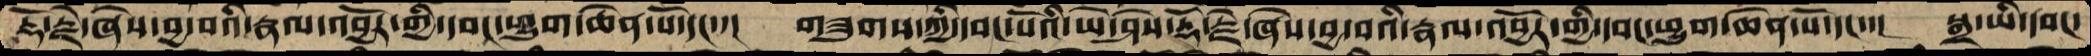རྡོ་རྗེ་ཞེས་བྱ་བའི་རྣལ་འབྱོར་གྱི་དབང་ཕྱུག་ཆེན་པོ་དང་་།  གཟུགས་ཀྱི་དབང་པོའི་ཡེ་ཤེས་རྡོ་རྗེ་ཞེས་བྱ་བའི་རྣལ་འབྱོར་གྱི་དབང་ཕྱུག་ཆེན་པོ་དང་་།  སྒྲ་ཡི་དབང་
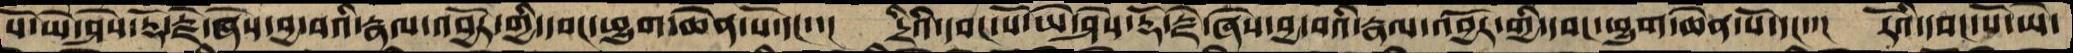སོ་ཡེ་ཤེས་རྡོ་རྗེ་ཞེས་བྱ་བའི་རྣལ་འབྱོར་གྱི་དབང་ཕྱུག་ཆེན་པོ་དང་་།  དྲིའི་དབང་པོ་ཡེ་ཤེས་རྡོ་རྗེ་ཞེས་བྱ་བའི་རྣལ་འབྱོར་གྱི་དབང་ཕྱུག་ཆེན་པོ་དང་་།  རོའི་དབང་པོ་ཡེ་
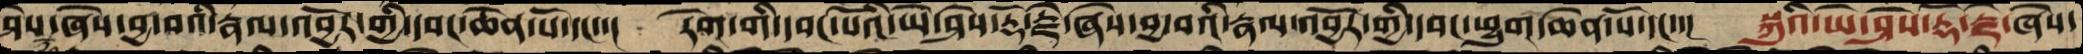ཤེས་ཞེས་བྱ་བའི་རྣལ་འབྱོར་གྱི་དབང་ཆེན་པོ་དང་་།  ཏོག་གི་དབང་པོའི་ཡེ་ཤེས་རྡོ་རྗེ་ཞེས་བྱ་བའི་རྣལ་འབྱོར་གྱི་དབང་ཕྱུག་ཆེན་པོ་དང་་།  སྐུའི་ཡེ་ཤེས་རྡོ་རྗེ་ཞེས་
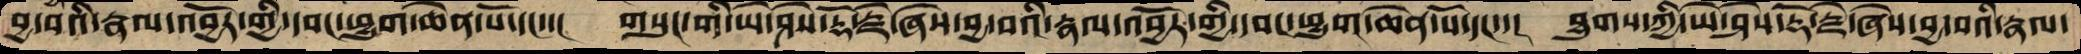བྱ་བའིརྣལ་འབྱོར་གྱི་དབང་ཕྱུག་ཆེན་པོ་དང་་།  གསུང་གི་ཡེ་ཤེས་རྡོ་རྗེ་ཞེས་བྱ་བའི་རྣལ་འབྱོར་གྱི་དབང་ཕྱུག་ཆེན་པོ་དང་་།  ཐུགས་ཀྱི་ཡེ་ཤེས་རྡོ་རྗེ་ཞེས་བྱ་བའི་རྣལ་
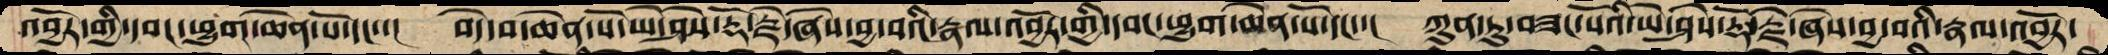འབྱོར་གྱི་དབང་ཕྱུག་ཆེན་པོ་དང་་།  བདེ་བ་ཆེན་པོ་ཡེ་ཤེས་རྡོ་རྗེ་ཞེས་བྱ་བའི་རྣལ་འབྱོར་གྱི་དབང་ཕྱུག་ཆེན་པོ་དང་་།  ཀུན་ཏུ་བཟང་པོའི་ཡེ་ཤེས་རྡོ་རྗེ་ཞེས་བྱ་བའི་རྣལ་འབྱོར་
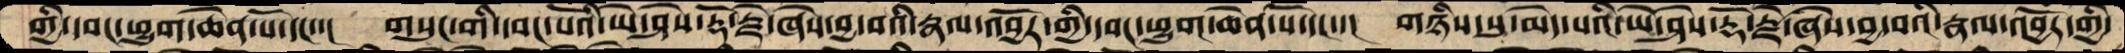གྱི་དབང་ཕྱུག་ཆེན་པོ་དང་་།  གསུང་གི་དབང་པོའི་ཡེ་ཤེས་རྡོ་རྗེ་ཞེས་བྱ་བའི་རྣལ་འབྱོར་གྱི་དབང་ཕྱུག་ཆེན་པོ་དང་་།  གཉིས་སུ་མེད་པའི་ཡེ་ཤེས་རྡོ་རྗེ་ཞེས་བྱ་བའི་རྣལ་འབྱོར་གྱི་
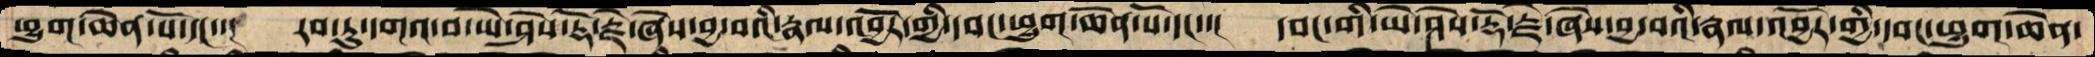ཕྱུག་ཆེན་པོ་དང་་།  རབ་ཏུ་དགའ་བ་ཡེ་ཤེས་རྡོ་རྗེ་ཞེས་བྱ་བའི་རྣལ་འབྱོར་གྱི་དབང་ཕྱུག་ཆེན་པོ་དང་་།  དབང་གི་ཡེ་ཤེས་རྡོ་རྗེ་ཞེས་བྱ་བའི་རྣལ་འབྱོར་གྱི་དབང་ཕྱུག་ཆེན་
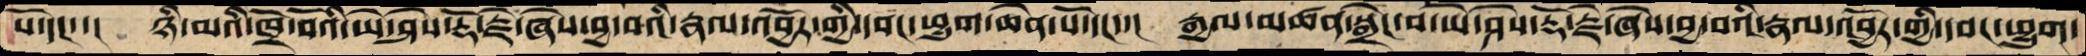པོ་དང་་།  ཉི་མའི་ཁྲོ་བོའི་ཡེ་ཤེས་རྡོ་རྗེ་ཞེས་བྱ་བའི་རྣལ་འབྱོར་གྱི་དབང་ཕྱུག་ཆེན་པོ་དང་་།  རྒྱལ་མཚན་སྒྲེང་བ་ཡེ་ཤེས་རྡོ་རྗེ་ཞེས་བྱ་བའི་རྣལ་འབྱོར་གྱི་དབང་ཕྱུག་
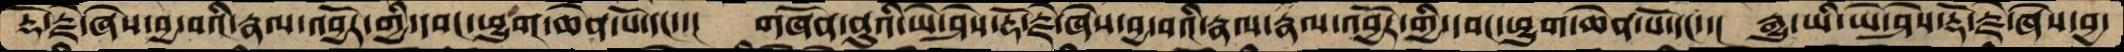རྡོ་རྗེ་ཞེས་བྱ་བའི་རྣལ་འབྱོར་གྱི་དབང་ཕྱུག་ཆེན་པོ་དང་་།  གཞོན་ནུའི་ཡེ་ཤེས་རྡོ་རྗེ་ཞེས་བྱ་བའི་རྣལ་འབྱོར་གྱི་དབང་ཕྱུག་ཆེན་པོ་དང་་།  རྒྱུ་ཡི་ཡེ་ཤེས་རྡོ་རྗེ་ཞེས་བྱ་
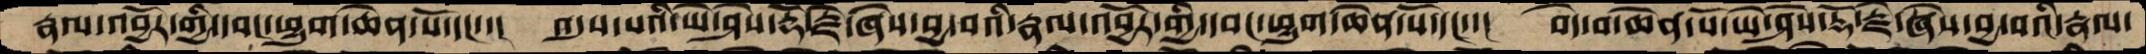རྣལ་འབྱོར་གྱི་དབང་ཕྱུག་ཆེན་པོ་དང་་།  འདུས་པའི་ཡེ་ཤེས་རྡོ་རྗེ་ཞེས་བྱ་བའི་རྣལ་འབྱོར་གྱི་དབང་ཕྱུག་ཆེན་པོ་དང་་།  བདེ་བ་ཆེན་པོ་ཡེ་ཤེས་རྡོ་རྗེ་ཞེས་བྱ་བའི་རྣལ་
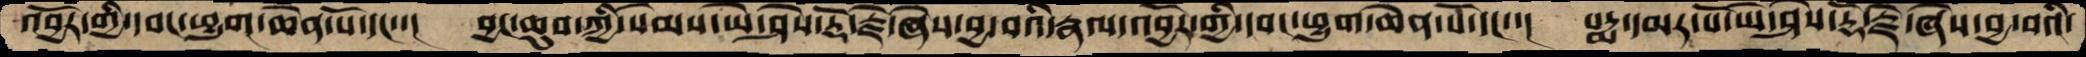འབྱོར་གྱི་དབང་ཕྱུག་ཆེན་པོ་དང་་།  བྱང་ཆུབ་ཀྱི་སེམས་ཡེ་ཤེས་རྡོ་རྗེ་ཞེས་བྱ་བའི་རྣལ་འབྱོར་གྱི་དབང་ཕྱུག་ཆེན་པོ་དང་་།  པདྨ་དམར་པོ་ཡེ་ཤེས་རྡོ་རྗེ་ཞེས་བྱ་བའི་
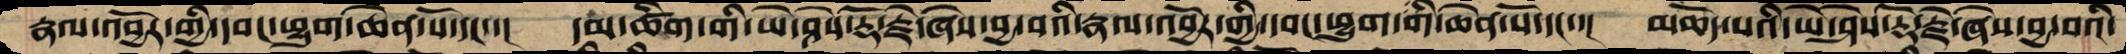རྣལ་འབྱོར་གྱི་དབང་ཕྱུག་ཆེན་པོ་དང་་།  དམ་ཚིག་གི་ཡེ་ཤེས་རྡོ་རྗེ་ཞེས་བྱ་བའི་རྣལ་འབྱོར་གྱི་དབང་ཕྱུག་གི་ཆེན་པོ་དང་་།  མཆོད་པའི་ཡེ་ཤེས་རྡོ་རྗེ་ཞེས་བྱ་བའི་
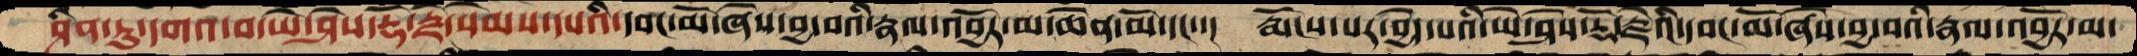ཤིན་ཏུ་དགའ་བ་ཡེ་ཤེས་རྡོ་རྗེ་སེམས་དཔའི་དབང་མོ་ཞེས་བྱ་བའི་རྣལ་འབྱོར་མ་ཆེན་མོ་དང་་།  རྨོངས་པར་བྱེད་པའི་ཡེ་ཤེས་རྡོ་རྗེའི་དབང་མོ་ཞེས་བྱ་བའི་རྣལ་འབྱོར་མ་
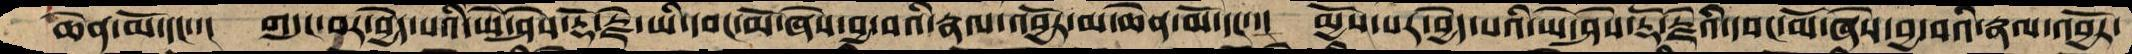ཆེན་པོ་དང་་།  གདུང་བར་བྱེད་པའི་ཡེ་ཤེས་རྡོ་རྗེ་ཡི་དབང་མོ་ཞེས་བྱ་བའི་རྣལ་འབྱོར་མ་ཆེན་མོ་དང་་།  མྱོས་པར་བྱེད་པའི་ཡེ་ཤེས་རྡོ་རྗེའི་དབང་མོ་ཞེས་བྱ་བའི་རྣལ་འབྱོར་
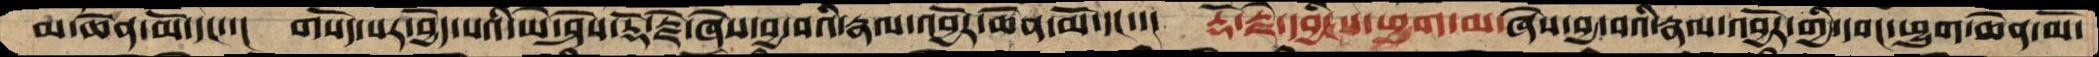མ་ཆེན་མོ་དང་་།  གསོད་པར་བྱེད་པའི་ཡེ་ཤེས་རྡོ་རྗེ་ཞེས་བྱ་བའི་རྣལ་འབྱོར་ཆེན་མོ་དང་་།  རྡོ་རྗེ་དབྱིངས་ཕྱུག་མ་ཞེས་བྱ་བའི་རྣལ་འབྱོར་གྱི་དབང་ཕྱུག་ཆེན་མོ་
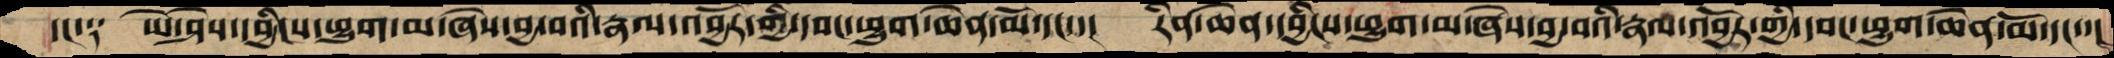དང་༑  ཡེ་ཤེས་དབྱིངས་ཕྱུག་མ་ཞེས་བྱ་བའི་རྣལ་འབྱོར་གྱི་དབང་ཕྱུག་ཆེན་མོ་དང་་།  རིན་ཆེན་དབྱིངས་ཕྱུག་མ་ཞེས་བྱ་བའི་རྣལ་འབྱོར་གྱི་དབང་ཕྱུག་ཆེན་མོ་དང་་།
